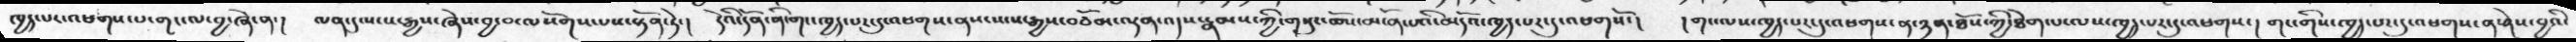ཁྱད་པར་འཕགས་པ་གང་ལ་བྱ་ཞེ་ན་།  ལན་དུ་སངས་རྒྱས་ཞེས་བྱ་བ་ལསོགས་པས་སྟོན་ཏེ་།  དེའི་དོན་ནི་གང་ཁྱད་པར་དུ་འཕགས་ནས་སངས་རྒྱས་བཅོམ་ལྡན་འདས་རྣམས་ཀྱི་གསུང་ཆོས་མངོན་པའི་མདོའ་ཁྱད་པར་དུ་འཕགསོ་།   །གང་ལས་ཁྱད་པར་དུ་འཕགས་ན་ཉན་ཐོས་ཀྱི་ཐེག་པ་ལས་ཁྱད་པར་དུ་འཕགས་། གང་གིས་ཁྱད་པར་དུ་འཕགས་ན་ཤེས་བྱའི་
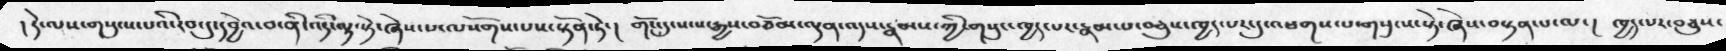། དེ་ལས་གསུངས་པའི་རབ་དུ་དབྱེའ་བ་ནི་འདི་ལྟ་སྟེ་ཞེས་པ་ལསོགས་པས་སྟོན་ཏེ་།  གོང་དུ་སངས་རྒྱས་བཅོམ་ལྡན་འདས་རྣམས་ཀྱི་གསུང་ཁྱད་པར་རྣམ་པ་བཅུས་ཁྱད་པར་དུ་འཕགས་པ་གསུངས་སྟེ་ཞེས་བསྟན་པ་ལ་།  ཁྱད་པར་བཅུས་
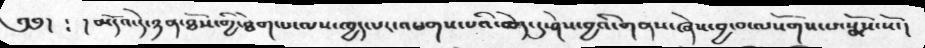༄༅།  ༴ ། མདོའ་དེ་ཉན་ཐོས་གྱི་ཐེག་པ་ལས་ཁྱད་པར་འཕགས་པའི་ཆེད་དུ་ཤེས་བྱའི་གནས་ཞེས་བྱ་བ་ལསོགས་པ་སྨོས་སོ་།
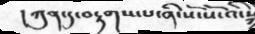།ཀུན་དུ་བརྟགས་པ་ནི་སོ་སོ་འི་
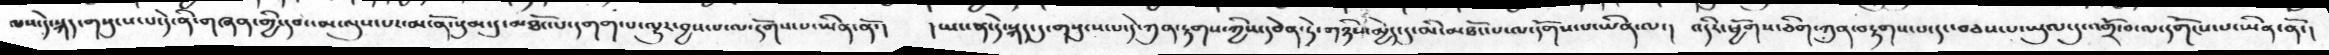ལས་དེ་སྐད་གསུངས་པ་དེ་ནི་གཞན་གྱི་དབང་མ་ལུས་པར་མངོན་སུམ་དུ་མཐོང་པ་དགག་པ་ལྷུར་བྱས་པ་ལ་དགོས་པ་ཡིན་ནོ་།  །ཡང་ན་དེ་སྐད་དུ་གསུངས་པ་དེ་ཀུན་བརྟགས་ཀྱིས་དབེན་ཏེ་གཉིས་མྱེད་དུ་མི་མཐོང་པ་ལ་དགོས་པ་ཡིན་ལ་།  འདིར་ཕྱོགས་ཅིག་ཀུན་བརྟགས་པ་དང་བཅས་པ་ཡུལ་དུ་འགྲོ་བ་ལ་དགོངས་པ་ཡིན་ནོ་།
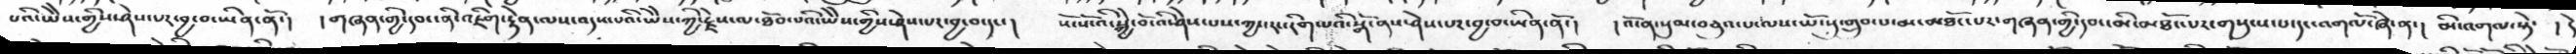པའི་ཡཻས་གྱིས་ཤེས་པར་བྱ་བ་ཡིན་ནོ་།  །གཞན་གྱི་དབང་ནི་འཇིག་་རྟེན་ལས་འདས་པའི་ཡཻས་ཀྱི་རྗེས་ལ་ཐོབ་པའི་ཡཻས་ཀྱིས་ཤེས་པར་བྱ་བ་དང་།  སོ་སོ་འི་སྐྱེ་བོ་འི་ཤེས་པས་ཀྱང་རང་རིག་པའི་སྒོ་ནས་ཤེས་པར་བྱ་བ་ཡིན་ནོ་།  །འོ་ན་སུམ་བཅུའ་པ་ལས་ཡོངསུ་གྲུབ་པ་མ་མཐོང་པར་གཞན་གྱི་དབང་མི་མཐོང་པར་གསུངས་པ་དང་འགལོ་ཞེ་ན་།  མི་འགལ་སྟེ་ །དེ
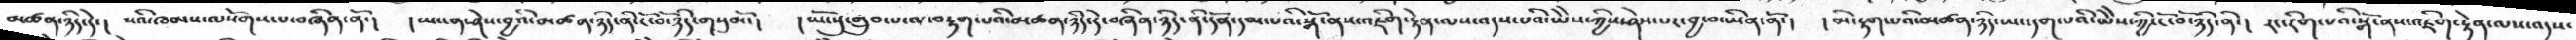མཚན་ཉིད་དེ་།  སའི་ཁམས་ལསོགས་པ་བཞིན་ནོ་།  །ཡང་ན་ཤེས་བྱའི་མཚན་ཉིད་ནི་ངོ་བོ་ཉིད་གསུམོ་།  །ཡོངསུ་གྲུབ་པ་ལ་བརྟག་པའི་མཚན་ཉིད་དེ་བཞིན་ཉིད་ནི་དོན་དམ་པའི་སྒོ་ནས་འཇིག་རྟེན་ལས་འདས་པའི་ཡེེས་ཀྱིས་ཤེས་པར་བྱ་བ་ཡིན་ནོ་།  །མི་རྟག་པའི་མཚན་ཉིད་ཡང་དག་པའི་ཡེེས་ཀྱི་ངོ་བོ་ཉིད་ནི་།  རང་རིག་པའི་སྒོ་ནས་འཇིག་རྟེན་ལས་འདས་
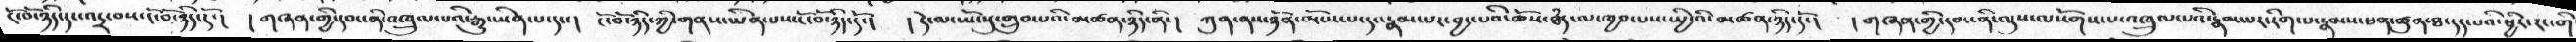ངོ་བོ་ཉིད་དང་འདྲ་བས་ངོ་བོ་ཉིད་དོ་།  །གཞན་གྱི་དབང་ནི་འཁྲུལ་པའི་རྒྱུ་ཡིན་པ་དང་།  ངོ་བོ་ཉིད་ཀྱི་གནས་ཡིན་པས་ངོ་བོ་ཉིད་དོ་།  །དེ་ལ་ཡོངསུ་གྲུབ་པའི་མཚན་ཉིད་ནི་།  ཀུན་ནས་ཉོན་མོངས་པ་དང་རྣམ་པར་བྱང་པའི་ཆོས་ཐདཾ་ལ་ཁྱབ་པས་སྤྱི་འི་མཚན་ཉིད་དོ་།  །གཞན་གྱི་དབང་ནི་ལུས་ལསོགས་པ་འཁྲུལ་པའི་རྣམ་པར་རིག་པ་རྣམས་ཕན་ཚུན་ཐ་དད་པའི་ཕྱིར་རང་གི
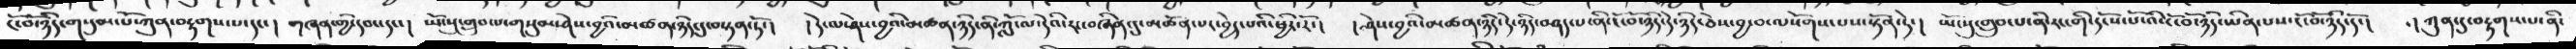ངོ་བོ་ཉིད་གསུམ་པོ་ཀུན་བརྟགས་པ་དང་།  གཞན་གྱི་དབང་དང་།  ཡོངསུ་གྲུབ་པ་གསུམ་ཤེས་བྱའི་མཚན་ཉིད་དུ་བསྟན་ཏོ་།  །དེ་ལ་ཤེས་བྱའི་མཚན་ཉིད་ནི་ཀློ་ལ་དེའི་རང་བཞིན་དུ་མཚོན་པར་བྱེད་པའི་ཕྱིར་རོ་།  །ཤེས་བྱའི་མཚན་ཉིད་དེ་ཉིད་བཤད་པ་ནི་ངོ་བོ་ཉིད་དེ་ཉིད་ཅེས་བྱ་བ་ལསོགས་པས་སྟོན་ཏེ་།  ཡོངསུ་གྲུབ་པ་ནི་རང་གི་དངོས་པོ་འི་ངོ་བོ་ཉིད་ཡིན་པས་ངོ་བོ་ཉིད་དོ་།  ། ཀུན་དུ་བརྟགས་པ་ནི་
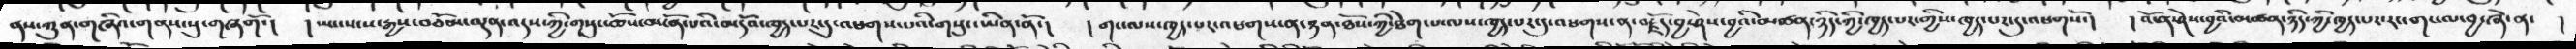ནས་ཀུན་གཞིའ་གནས་སུ་གཞགོ་།  ། ཡང་སངས་རྒྱས་བཅོམ་ལྡན་འདས་ཀྱི་གསུང་ཆོས་མངོན་པའི་མདོའ་ཁྱད་པར་དུ་འཕགས་པའི་གསུང་ཡིན་ནོ་།  །གང་ལས་ཁྱད་པར་འཕགས་ན་ཉན་ཐོས་ཀྱི་ཐེག་པ་ལས་ཁྱད་པར་དུ་འཕགས་ན་བརྗོད་བྱ་ཤེས་བྱའི་མཚན་ཉིད་ཀྱི་ཁྱད་པར་གྱིས་ཁྱད་པར་དུ་འཕགསོ་།   །འོ་ན་ཤེས་བྱའི་མཚན་ཉིད་ཀྱི་ཁྱད་པར་རང་གང་ལ་བྱ་ཞེ་ན་  །
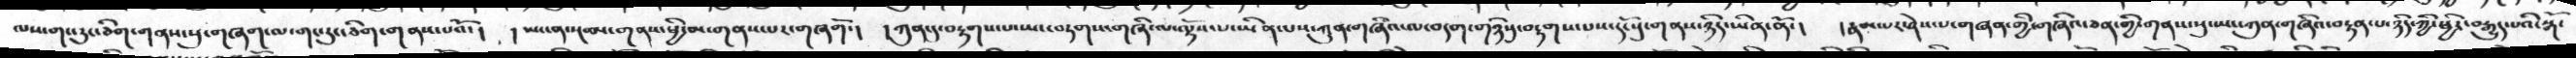ལས་གང་རུང་ཅིག་གནས་སུ་གཞག་ལ་གང་རུང་ཅིག་གནས་པའོ་།  །ཡང་ན་སྔ་མ་གནས་ཕྱི་མ་གནས་པར་གཞགོ་།  ཀུན་དུ་བརྟགས་པ་ཡང་བཏགས་གཞི་ལ་ལྟོས་པ་ཡིན་པས་ཀུན་གཞིའ་ལ་བདག་གཉིསུ་བརྟགས་པས་དངོསུ་གནས་ཉིད་ཡིན་ནོ་།  །རྣམ་པར་ཤེས་པ་གཞན་གྱི་གཞིའ་ཅན་གྱི་གནས་སུ་ཡང་ཀུན་གཞིའ་བརྟན་པ་ཉིད་ཀྱི་ཕྱིར་བརྒྱུད་པའི་སྒོ་
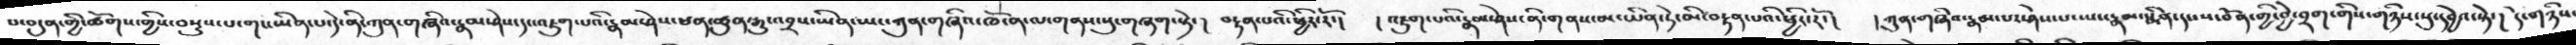པ་བདུན་གྱི་ཚོགས་གྱིས་བསྡུས་པ་གང་ཡིན་པ་དེ་ནི་ཀུན་གཞིའ་རྣམ་ཤེས་དང་འཇུག་པའི་རྣམ་ཤེས་ཕན་ཚུན་རྒྱུ་འབྲས་ཡིན་ཡང་ཀུན་གཞིའ་ཁོ་ན་ལ་གནས་སུ་གཞག་སྟེ་།  བརྟན་པའི་ཕྱིར་རོ་།  །འཇུག་པའི་རྣམ་ཤེས་ནི་གནས་མ་ཡིན་ཏེ་མི་བརྟན་པའི་ཕྱིར་རོ་།  །ཀུན་གཞིའ་རྣམ་པར་ཤེས་པ་ཡང་རྣམ་སྨིན་དང་ས་བོན་གྱི་བྱེ་བྲག་གིས་གཉིས་སུ་དབྱེའ་སྟེ་།  དེ་གཉིས་
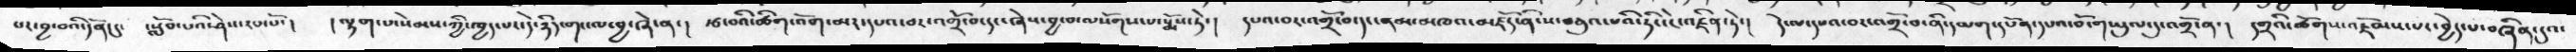པར་བྱ་བའི་དོན་དུ་  ་སློབ་པའི་ཤེས་རབ་སོ་།  །ལྷག་པ་སེམས་ཀྱི་ཁྱད་པར་དེ་ཉིད་གང་ལ་བྱ་ཞེ་ན་།  རྩ་བའི་ཚིག་འོག་མར་དཔའ་བར་འགྲོ་བ་དང་ཞེས་བྱ་བ་ལསོགས་པ་སྨོས་ཏེ་།  དཔའ་བར་འགྲོ་བ་དང་ནམ་མཁའ་མཛོད་ནི་ས་བཅུའ་པའི་ཏིང་ངེ་འཛིན་ཏེ་།  དེ་ལ་དཔའ་བར་འགྲོ་བ་ནི་དམག་དཔོན་དཔའ་བོ་གཡུལ་དུ་འགྲོ་ན་།  དགྲའི་ཚོགས་འཇོམས་པར་བྱེད་པ་བཞིན་དུའ་
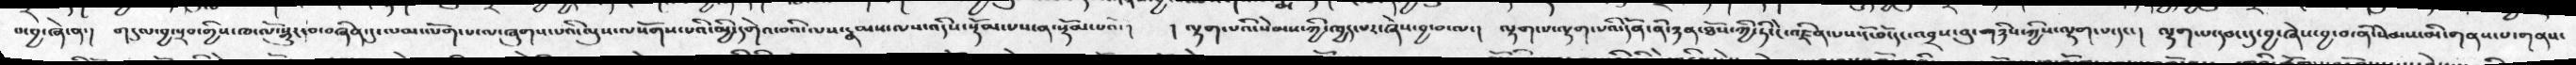པ་བྱེ་ཞེ་ན་།  གདུལ་བྱ་སྲབ་གྱིས་ཁ་ལོ་སྒྱུར་བ་བཞིན་དུ་ལམ་ལོག་པ་ལ་ཞུགས་པའི་ལུས་ལསོགས་པའི་མྱི་དགེའ་བའི་ལས་རྣམས་ལས་འདིས་སྡོམ་པས་ན་སྡོམ་པའོ་།  །ལྷག་པའི་སེམས་ཀྱི་ཁྱད་པར་ཞེས་བྱ་བ་ལ་།  ལྷག་པ་ལྷག་པའི་དོན་ནི་ཉན་ཐོས་ཀྱི་ཏིང་ངེ་འཛིན་པས་ངོ་བོ་དང་འབྲས་བུ་གཉིས་ཀྱིས་ལྷག་པ་དང་།  ལྷག་པ་དབང་དུ་བྱ་ཞེས་བྱ་བ་ནི་སེམས་མི་གནས་པ་གནས་
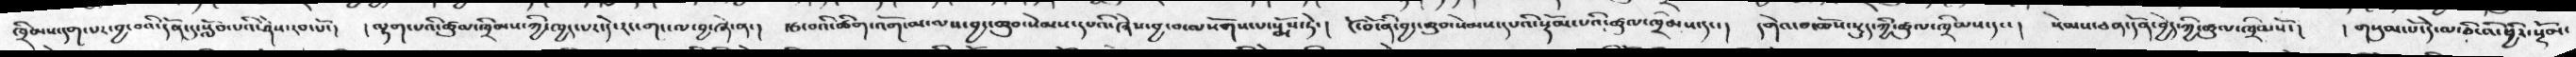ཁྲིམས་དག་པར་བྱ་བའི་དོན་དུ་སློབ་པའི་ཤེས་རབ་པོ་།  །ལྷག་པའི་ཚུལ་ཁྲིམས་ཀྱི་ཁྱད་པར་དེ་རང་གང་ལ་བྱ་ཞེ་ན་།  རྩ་བའི་ཚིག་འོག་མ་ལས་བྱང་ཆུབ་སེམས་དཔའི་ཞེས་བྱ་བ་ལསོགས་པ་སྨོས་ཏེ་།  ངོ་བོ་ནི་བྱང་ཆུབ་སེམས་དཔའི་སྡོམ་པའི་ཚུལ་ཁྲིམས་དང་།  དགེའ་བ་ཆོས་སྡུད་ཀྱི་ཚུལ་ཁྲིམས་དང་།  སེམས་ཅན་དོན་བྱེད་ཀྱི་ཚུལ་ཁྲིམསོ་།   །གསུམ་པོ་དེ་ལ་ཅི་འི་ཕྱིར་སྡོམ་
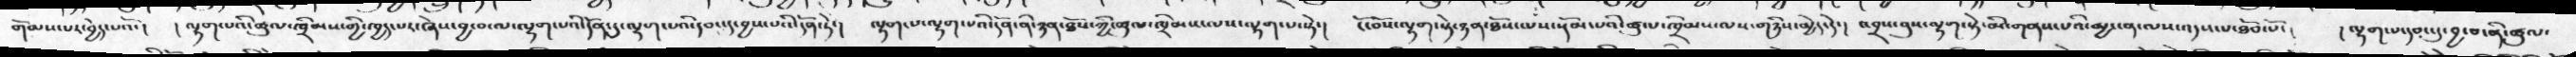གོམས་པར་བྱེད་པའོ་།  །ལྷག་པའི་ཚུལ་ཁྲིམས་གྱི་ཁྱད་པར་ཞེས་བྱ་བ་ལ་ལྷག་པའི་དོན་དུ་ལྷག་པའི་དབང་དུ་དུ་བྱས་པའི་དོན་ཏེ་།  ལྷག་པ་ལྷག་པའི་དོན་ནི་ཉན་ཐོས་ཀྱི་ཚུལ་ཁྲིམས་ལས་ལྷག་པ་སྟེ་།  ངོ་བོས་ལྷག་སྟེ་ཉན་ཐོས་ལས་སྡོམ་པའི་ཚུལ་ཁྲིམས་ལས་གཉིས་མྱེད་དེ་།  འབྲས་བུས་ལྷག་སྟེ་མི་གནས་པའི་མྱ་ངན་ལས་འདས་པ་ཐོབ་པོ་།  །ལྷག་པ་དབང་དུ་བྱ་བ་ནི་ཚུལ་
